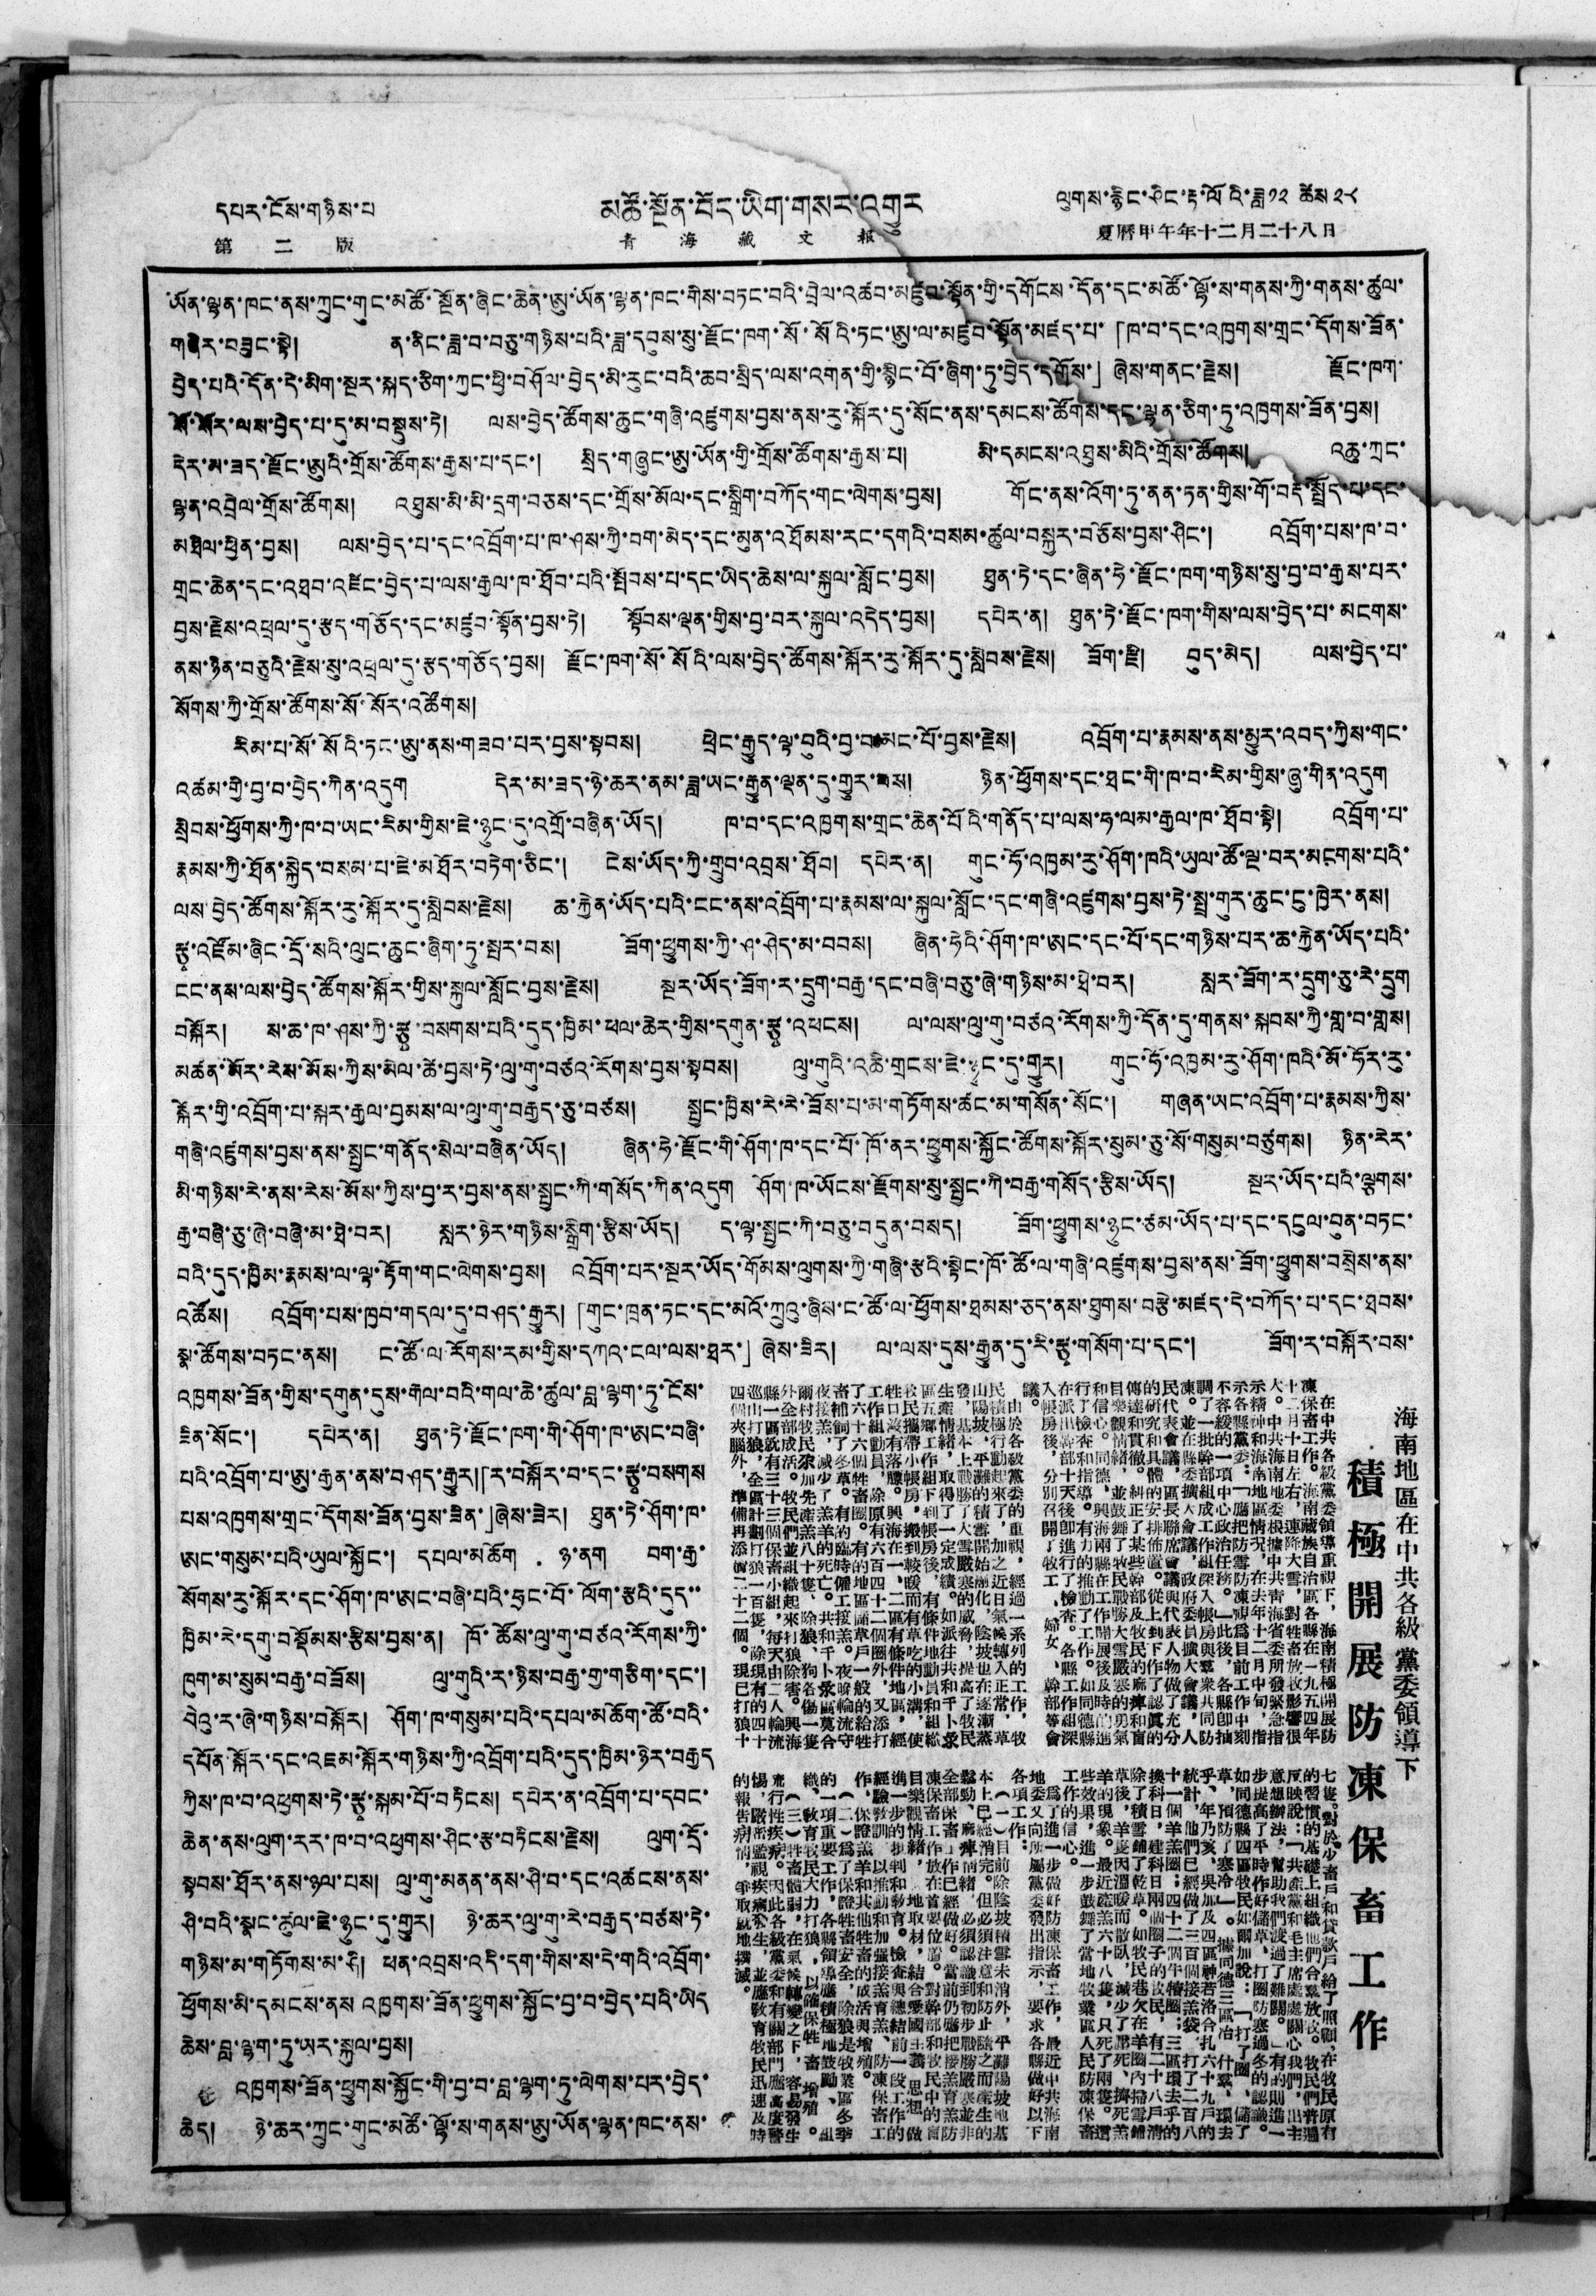དཔར་ངོས་གཉིས་པ། མཚོ་སྔོན་བོད་ཡིག་གསར་འགྱུར ལུགས་རྙིང་ཤིང་རྟ་ལོའི་ཟླ༡༢ ཚེས༢༨
第 二 版 青 海 藏 文 報 夏曆甲午年十二月二十八日
ཡོན་ལྷན་ཁང་ནས་ཀྲུང་གུང་མཚོ་སྔོན་ཞིང་ཆེན་ཨུ་ཡོན་ལྷན་ཁང་གིས་བཏང་བའི་བྲེལ་འཚབ་མཛུབ་སྣོནགྱིདགོངས་དོན་དང་མཚོ་ལྷོ་ས་གནས་ཀྱི་གནས་ཚུལ་
གཞིར་བཟུང་སྟེ། ན་ནིང་ཟླ་བ་བཅུ་གཉིས་པའི་ཟླ་དབུས་སུ་རྫོང་ཁག་སོ་སོའི་ཏང་ཨུ་ལ་མཛུབ་སྟོན་མཛད་པ་「ཁ་བ་དང་འཁྱགས་གྲང་དོགས་ཟོན་
བྱེད་པའི་དོན་དེ་མིག་སྔར་སྐད་ཅིག་ཀྱང་ཕྱི་བཤོལ་བྱེད་མི་རུང་བའི་ཆབ་སྲིད་ལས་འགན་གྱི་སྙིང་བོ་ཞིག་ཏུ་བྱེད་དགོས་」ཞེས་གནང་རྗེས། རྫོང་ཁག་
སོ་སོར་ལས་བྱེད་པ་དུ་མ་བསྡུས་ཏེ། ལས་བྱེད་ཚོགས་ཆུང་གཞི་འཛུགས་བྱས་ནས་རུ་སྐོར་དུ་སོང་ནས་དམངས་ཚོགས་དང་ལྡན་ཅིག་ཏུ་འཁྱགས་ཟོན་བྱས།
དེར་མ་ཟད་རྫོང་ཨུའི་གྲོས་ཚོགས་རྒྱས་པ་དང་། སྲིད་གཞུང་ཨུ་ཡོན་གྱི་གྲོས་ཚོགས་རྒྱས་པ། མི་དམངས་འཐུས་མིའི་གྲོས་ཚོགས འཆུ་ཀྲང་
ལྷན་འབྲེལ་གྲོས་ཚོགས། འཐུས་མི་མི་དྲག་བཅས་དང་གྲོས་མོལ་དང་སྒྲིག་བཀོད་གང་ལེགས་བྱས། གོང་ནས་འོག་ཏུ་ནན་ཏན་གྱིས་གོ་བརྡ་སྤྲོད་པ་དང་
མཐིལ་ཕྱིན་བྱས། ལས་བྱེད་པ་དང་འབྲོག་པ་ཁ་ཤས་ཀྱི་བག་མེད་དང་མུན་འཐོམས་རང་དགའི་བསམ་ཚུལ་བསྐྱར་བཅོས་བྱས་ཤིང་། འབྲོག་པས་ཁ་བ་
གྲང་ཆེན་དང་འཐབ་འཛིང་བྱེད་པ་ལས་རྒྱལ་ཁ་ཐོབ་པའི་སྤོབས་པ་དང་ཡིད་ཆེས་ལ་སྐུལ་སློང་བྱས། ཐུན་ཏེ་དང་ཞིན་ཧེ་རྫོང་ཁག་གཉིས་སུ་བྱ་བ་རྒྱས་པར་
བྱས་རྗེས་འཕྲལ་དུ་རྩད་གཅོད་དང་མཛུབ་སྟོན་བྱས་ཏེ། སྟོབས་ལྡན་གྱིས་བྱ་བར་སྐུལ་འདེད་བྱས། དཔེར་ན། ཐུན་ཏེ་རྫོང་ཁག་གིས་ལས་བྱེད་པ་མངགས་
ནས་ཉིན་བཅུའི་རྗེས་སུ་འཕྲལ་དུ་རྩད་གཅོད་བྱས། རྫོང་ཁག་སོ་སོའི་ལས་བྱེད་ཚོགས་སྐོར་རུ་སྐོར་དུ་སླེབས་རྗེས། ཟོག་རྫི། བུད་མེད། ལས་བྱེད་པ་
སོགས་ཀྱི་གྲོས་ཚོགས་སོ་སོར་འཚོགས།
རིམ་པ་སོ་སོའི་ཏང་ཨུ་ནས་གཟབ་པར་བྱས་སྟབས། ཕྲེང་རྒྱུད་ལྟ་བུའི་བྱ་བམང་པོ་བྱས་རྗེས། འབྲོག་པ་རྣམས་ནས་མྱུར་འབད་ཀྱིས་གང་
གྱི་བྱ་བ་བྱེད་ཀིན་འདུག དེར་མ་ཟད་ཉེ་ཆར་ནམ་ཟླ་ཡང་རྒྱུན་ལྡན་དུ་གྱུར་བས། ཉིན་ཕྱོགས་དང་ཐང་གི་ཁ་བ་རིམ་གྱིས་ཞུ་གིན་འདུག
སྲེབས་ཕྱོགས་ཀྱི་ཁ་བ་ཡང་རིམ་གྱིས་ཇེ་ཉུང་དུ་འགྲོ་བཞིན་ཡོད། ཁ་བ་དང་འཁྱགས་གྲང་ཆེན་པོའི་གནོད་པ་ལས་ཧ་ལམ་རྒྱལ་ཁ་ཐོབ་སྟེ། འབྲོག་པ་
རྣམས་ཀྱི་ཐོན་སྐྱེད་བསམ་པ་ཇེ་མཐོར་བཏེག་ཅིང་། ངེས་ཡོད་ཀྱི་གྲུབ་འབྲས་ཐོབ། དཔེར་ན། གུང་ཧོ་འཁྱམ་རུ་ཤོག་ཁའི་ཡུལ་ཚོ་ལྔ་བར་མངགས་པའི་
ལས་བྱེད་ཚོགས་སྐོར་རུ་སྐོར་དུ་སླེབས་རྗེས། ཆ་རྐྱེན་ཡོད་པའི་ངང་ནས་འབྲོག་པ་རྣམས་ལ་སྐུལ་སློང་དང་གཞི་འཛུགས་བྱས་ཏེ་སྤྲ་གུར་ཆུང་ངུ་ཁྱེར་ནས།
རྩྭ་འཛོམ་ཞིང་དྲོ་སའི་ལུང་ཆུང་ཞིག་ཏུ་སྤར་བས།  ཟོག་ཕྱུགས་ཀྱི་ཤ་ཤེད་མ་བབས།  ཞིན་ཧེའི་ཤོག་ཁ་ཨང་དང་པོ་དང་གཉིས་པར་ཆ་རྐྱེན་ཡོད་པའི་
ངང་ནས་ལས་བྱེད་ཚོགས་སྐོར་གྱིས་སྐུལ་སློང་བྱས་རྗེས། སྔར་ཡོད་ཟོག་ར་དྲུག་བརྒྱ་དང་བཞི་བཅུ་ཞེ་གཉིས་མ་ཐེ་བར། སླར་ཟོག་ར་དྲུག་ཅུ་རེ་དྲུག
བསྐོར།   ས་ཆ་ཁ་ཤས་ཀྱི་རྩྭ་བསགས་པའི་དུད་ཁྱིམ་ཕལ་ཆེར་གྱིས་དགུན་རྩྭ་འཕངས།  ལ་ལས་ལུ་གུ་བཙའ་རོགས་ཀྱི་དོན་དུ་གནས་སྐབས་ཀྱི་གླ་བ་གླས།
མཚན་མོར་རེས་མོས་ཀྱིས་མེལ་ཚེ་བྱས་ཏེ་ལུ་གུ་བཙའ་རོགས་བྱས་སྟབས།  ལུ་གུའི་འཆི་གྲངས་ཇེ་ཉུང་དུ་གྱུར།  གུང་ཧོ་འཁྱམ་རུ་ཤོག་ཁའི་མོ་ཧོར་རུ་
སྐོར་གྱི་འབྲོག་པ་སྐར་རྒྱལ་བྱམས་ལ་ལུ་གུ་བརྒྱད་ཅུ་བཙས། སྤྱང་ཁྱིས་རེ་རེ་ཟོས་པ་མ་གཏོགས་ཚང་མ་གསོན་སོང་། གཞན་ཡང་འབྲོག་པ་རྣམས་ཀྱིས་
གཞི་འཛུགས་བྱས་ནས་སྤྱང་གནོད་སེལ་བཞིན་ཡོད། ཞིན་ཧེ་རྫོང་གི་ཤོག་ཁ་དང་པོ་ཁོ་ནར་ཕྱུགས་སྐྱོང་ཚོགས་སྐོར་སུམ་ཅུ་སོ་གསུམ་བཙུགས། ཉིན་རེར་
མི་གཉིས་རེ་ནས་རེས་མོས་ཀྱིས་བྱ་ར་བྱས་ནས་སྤྱང་ཀི་གསོད་ཀིན་འདུག ཤོག་ཁ་ཡོངས་རྫོགས་སུ་སྦྱང་ཀི་བརྒྱ་གསོད་རྩིས་ཡོད། སྔར་ཡོད་པའི་ལྕགས་
རྒྱ་བཞི་ཅུ་ཞེ་བཞི་མ་ཐེ་བར།  སླར་ཉེར་གཉིས་སྒྲིག་རྩིས་ཡོད།  ད་ལྟ་སྤྱང་ཀི་བཅུ་བདུན་བསད།  ཟོག་ཕྱུགས་ཉུང་ཙམ་ཡོད་པ་དང་དངུལ་བུན་བཏང་
བའི་དུད་ཁྱིམ་རྣམས་ལ་ལྟ་རྟོག་གང་ལེགས་བྱས།  འབྲོག་པར་སྔར་ཡོད་གོམས་ལུགས་ཀྱི་གཞི་རྩའི་སྟེང་ཁོ་ཚོ་ལ་གཞི་འཛུགས་བྱས་ནས་ཟོག་ཕྱུགས་བསྲེས་ནས་
འཚོས། འབྲོག་པས་ཁྱབ་གདལ་དུ་བཤད་རྒྱུར། 「གུང་ཁྲན་ཏང་དང་མའོ་ཀྲུའུ་ཞིས་ང་ཚོ་ལ་ཕྱོགས་ཐམས་ཅད་ནས་ཐུགས་བརྩེ་མཛད་དེ་བཀོད་པ་དང་ཐབས་
སྣ་ཚོགས་བཏང་ནས།  ང་ཚོ་ལ་རོགས་རམ་གྱིས་དཀའ་ངལ་ལས་ཐར་」ཞེས་ཟེར།  ལ་ལས་དུས་རྒྱུན་དུ་རི་རྩྭ་གསོག་པ་དང་།  ཟོག་ར་བསྐོར་བས་
འཁྱགས་ཟོན་གྱིས་དགུན་དུས་རྒལ་བའི་གལ་ཆེ་ཚུལ་བླ་ལྷག་ཏུ་ངོས་
ཟིན་སོང་།  དཔེར་ན།  ཐུན་ཏེ་རྫོང་ཁག་གི་ཤོག་ཁ་ཨང་བཞི་
པའི་འབྲོག་པ་ཨུ་རྒྱན་ནས་བཤད་རྒྱུར།「ར་བསྐོར་བ་དང་རྩྭ་བསགས
པས་འཁྱགས་གྲང་དོགས་ཟོན་བྱས་ཟིན་」ཞེས་ཟེར།  ཐུན་ཏེ་ཤོག་ཁ་
ཨང་གསུམ་པའི་ཡུལ་སྐྱོང་།  དཔལ་མཆོག  ཉ་ནག  བག་རྒྱ་
སོགས་རུ་སྐོར་དང་ཤོག་ཁ་ཨང་བཞི་པའི་ཧྲང་བོ་ལོག་རྩའི་དུད་་
ཁྱིམ་རེ་དགུ་བསྡོམས་རྩིས་བྱས་ན།  ཁོ་ཚོས་ལུ་གུ་བཙའ་རོགས་ཀྱི་
ཁུག་མ་སུམ་བརྒྱ་བཟོས།  ལུ་གུའི་ར་ཉིས་བརྒྱ་གྱ་གཅིག་དང་།
བེའུ་ར་ཞེ་གཉིས་བསྐོར།  ཤོག་ཁ་གསུམ་པའི་དཔལ་མཆོག་ཚོ་བའི་
དཔོན་སྐོར་དང་འཇམ་སྐོར་གཉིས་ཀྱི་འབྲོག་པའི་དུད་ཁྱིམ་ཉེར་བརྒྱད
ཀྱིས་ཁ་བ་འཕྱགས་ཏེ་རྩྭ་སྐམ་པོ་བཏིངས།  དཔེར་ན་འབྲོག་པ་དབང་
ཆེན་ནས་ལུག་རར་ཁ་བ་འཕྱགས་ཤིང་རྩ་བཏིངས་རྗེས།  ལུག་དྲོ་
སྟབས་ཐོར་ནས་ཉལ་པས།  ལུ་གུ་མནན་ནས་ཤི་བ་དང་འཚངས་ནས་
ཤི་བའི་སྣང་ཚུལ་ཇེ་ཉུང་དུ་གྱུར།  ཉེ་ཆར་ལུ་གུ་རེ་བརྒྱད་བཙས་ཏེ་
གཉིས་མ་གཏོགས་མ་ཤི།  ཕན་འབྲས་འདི་དག་གིས་ས་དེ་གའི་འབྲོག་
ཕྱོགས་མི་དམངས་ནས་འཁྱགས་ཟོན་ཕྱུགས་སྐྱོང་བྱ་བ་བྱེད་པའི་ཡིད
ཆེས་བླ་ལྷག་ཏུ་ཡར་སྐུལ་བྱས།
འཁྱགས་ཟོན་ཕྱུགས་སྐྱོང་གི་བྱ་བ་བླ་ལྷག་ཏུ་ལེགས་པར་བྱེད་
ཆེད། ཉེ་ཆར་ཀྲུང་གུང་མཚོ་ལྷོ་ས་གནས་ཨུ་ཡོན་ལྷན་ཁང་ནས་
海南地區在中共各級黨委領導下
積 極 開 展 防 凍 保 畜 工 作
在中共各級黨委領導重視下，海南積極開展防
凍保畜工作。海南藏族自治區各縣在一九五四年
十二月十日左右，連降大雪，對牲畜放牧影響很
大。中共海南地委根據中共靑海省委所發禁忌指
示精神和海南地區情況，在去年十二月中旬，指
示各縣黨委：「應把防雪防凍視爲目前工作中刻
不容緩的一項中心政治任務。」此後，各縣卽抽
調了一批幹部組成工作組深入帳房與羣衆共同防
凍。並在縣委擴大會議，政府委員擴大會議，人
民代表會議，區長聯席會議與代表人物作了充分
的研究和具體的安排佈置。從上到下作了認眞的
傳達和貫徹。糾正了某些幹部及牧民的麻痹和盲
目樂觀情緒，並鼓舞了牧民戰勝大雪嚴寒的勇氣
和信心。同德、興海兩縣在工作開展後及時的進
行了檢查和指導。有力的推動了工作。如同德縣
在派處幹部十天後卽進行了檢查。各縣工作組深
入帳房後，分別召開了牧工 、婦女 、幹部等會
議。
由於各級黨委的重視，經過一系列的工作，牧
民積極行動起來了，加之近日氣候轉入正常，草
山陽坡，平灘的積雪開始融化，陰坡也在逐潮蒸
發，基本上戰勝了大雪嚴寒的威脅，提高了牧民
生產情緒，取得了一定成績。如派往共和千卜彔
區五鄉工作組下到帳房後，有條件地動員和組織
牧民攜帶小帳房，搬到較暖而有草吃的小溝，使
牲口沒有落膘。興海在一、二區有條件地區，經
工作組動員，除原有六百四十二個圈外，又添打
了六十六個牲畜圈。有的地區儲草戶一般的給牲
畜補飼了冬草。有的臨時僱工接羔。夜晚輪流守
夜接羔，減少了羔羊的死亡。共和千卜彔區莫合
爾村牧民尕加先產羔八十隻，除狼、狗各傷一隻
外全部成活。牧民們並組織起來打狼除害。興海
縣一區就有三十三個保畜小組，每天由二人輪流
巡山打狼，全區計劃打狼一百隻，除現有的四十
四個夾腦外，準備再添置二十二個。現已打狼十
七隻。對於少畜戶和貸款戶給了照顧，在牧民原有
的習慣地基礎上組織他們合羣放牧。牧民很普遍
反映說：「共產黨和毛主席處處關心我們，出主
意想辦法，幫助我們渡過了難關。」有的則進一
步提高了平時作好備草、打圈防寒過冬的認識。
如同德縣四區牧民如爾加說： 「打了圈、儲了
草、預防了寒冷」。據同德三區冶 什羣、環去
乎、年乃亥、吳加及四區神若洛合扎六十九戶的
統計，他們已經做了三百個接羔袋，打了二百八
十一個羊羔圈；四十二個牛槽圈；三區環去乎的
換科日、建科日兩個圈子的牧民，有二十八戶清
除了積雪鋪了乾草。如牧民巷欠在羊圈內掃雪鋪
草後，羊隻因溫暖而散臥，減少了壓死、擠死羔
羊的現象。最近產羔六十八隻，只死了兩隻。這
些效果，進一步鼓舞了當地牧業區人民防凍保畜
工作的信心。
爲了進一步做好防凍保畜工作，最近中共海南
地委又向所屬黨委發出指示，要求各縣做好以下
各項工作：
（一）目前除陰坡積雪未消外，平灘陽坡也基
本上已經消完。但必須注意和防止隨之而產生的
鬆動、麻痹情緒，必須認識到初步戰勝嚴寒並非
全部保畜工作已經做好。當前仍應把接羔育羔防
凍保畜工作放在首要位置。對幹部和牧民中的盲
目樂觀情緒，就地取材，結合愛國主義 思想 做
進一步的批判和敎育。檢查與總結前一段工作的
經驗敎訓，以推動和加強接羔育羔、防凍保畜工
作，保證羔羊和其他牲畜的成活與增殖。
（二）爲了保證牲畜安全，除狼是牧業區多季
的一項重要工作，各縣領導應積極地鼓勵、 組
織、敎育牧民大力打狼 ，以確保牲 畜 增殖。
（三）牲畜體弱，在氣候轉變之下，容易發生
流行性疾病。因此各級黨委和有關部門應高度警
惕，嚴密監視疾病發生，並應敎育牧民迅速及時
的報告病情，爭取就地撲滅。
